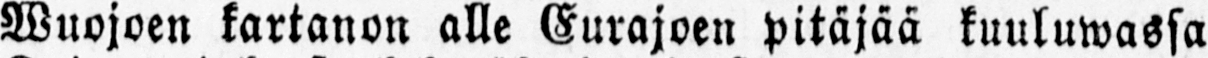Wuojoen kartanon alle Eurajoen pitäjää kuuluwassa
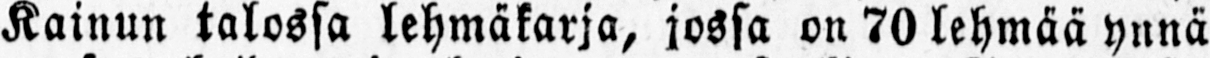Kainun talossa lehmäkarja, jossa on 70 lehmää ynnä
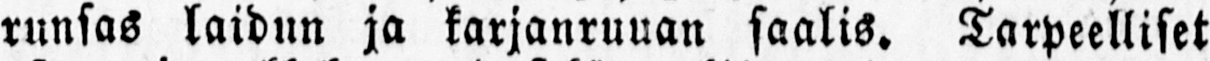runsas laidun ja karjanruuan saalis. Tarpeelliset
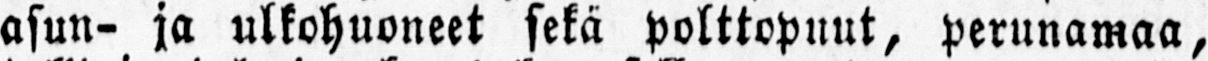asun- ja ulkohuoneet sekä polttopuut, perunamaa,
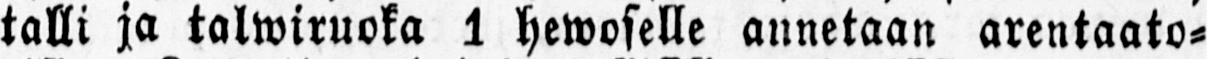talli ja talwiruoka 1 hewoselle annetaan arentaato-
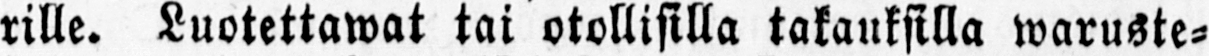rille. Luotettawat tai otollisilla takauksilla waruste-
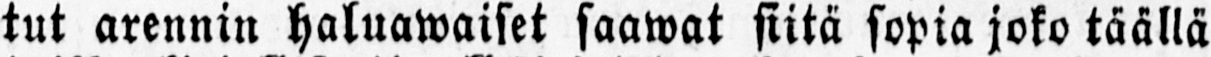tut arennin haluawaiset saawat siitä sopia joko täällä
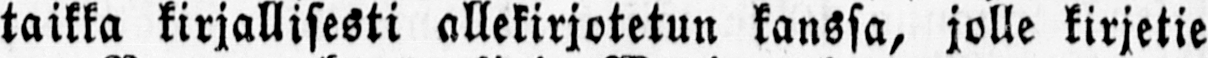taikka kirjallisesti allekirjotetun kanssa, jolle kirjetie
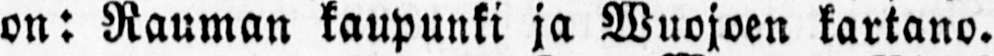on: Rauman kaupunki ja Wuojoen kartano.
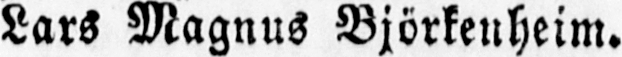Lars Magnus Björkenheim.
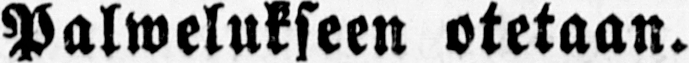Palwelukseen otetaan.
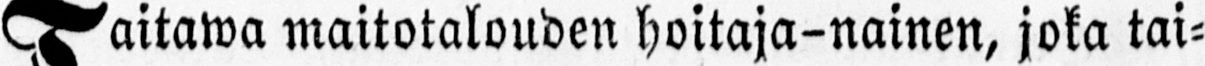Taitawa maitotalouden hoitaja-nainen, joka tai-
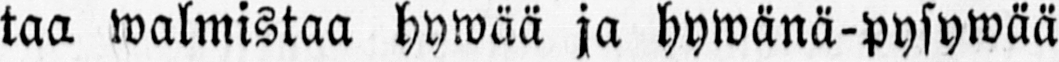taa walmistaa hywää ja hywänä-pysywää
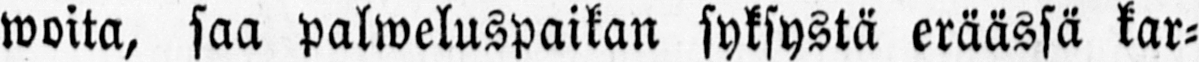woita, saa palweluspaikan syksystä eräässä kar-
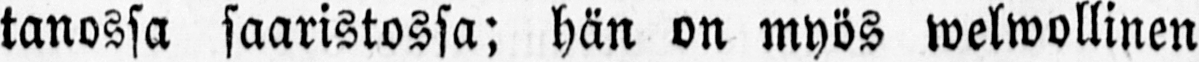tanossa saaristossa; hän on myös welwollinen
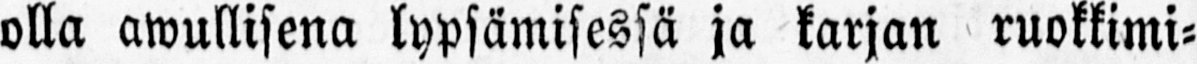olla awullisena lypsämisessä ja karjan ruokkimi-
